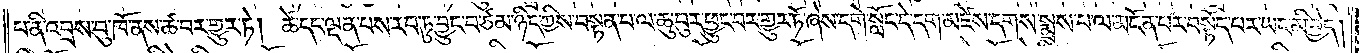པ་ནི་འབྲས་བུ་ཁོ་ནས་ཚ་བར་གྱུར་ཏེ། ཚེ་དང་ལྡན་པས་རབ་ཏུ་བྱུང་བ་ཙམ་ཉིད་ཀྱིས་བསྟན་པ་ལ་ཆུ་བུར་ཕྱུང་བར་གྱུར་ཏོ་ཞེས་དགེ་སློང་དེ་དག་མཛེས་དགས་སྨྲས་པ་ལ་མངོན་པར་བསྟོད་པར་ཡང་མི་བྱེད།
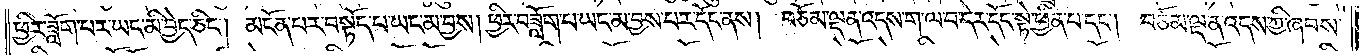ཕྱིར་ཟློག་པར་ཡང་མི་བྱེད་ཅིང༌། མངོན་པར་བསྟོད་པ་ཡང་མ་བྱས། ཕྱིར་བཟློག་པ་ཡང་མ་བྱས་པར་དོང་ནས། བཅོམ་ལྡན་འདས་ག་ལ་བ་དེར་དོང་སྟེ་ཕྱིན་པ་དང༌། བཅོམ་ལྡན་འདས་ཀྱི་ཞབས་
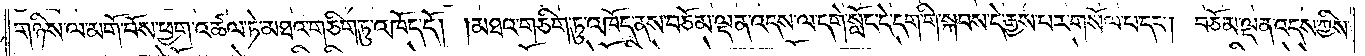གཉིས་ལ་མགོ་བོས་ཕྱག་འཚལ་ཏེ་མཐའ་གཅིག་ཏུ་འཁོད་དོ། །མཐའ་གཅིག་ཏུ་འཁོད་ནས་བཅོམ་ལྡན་འདས་ལ་དགེ་སློང་དེ་དག་གི་སྐབས་དེ་རྒྱས་པར་གསོལ་པ་དང༌། བཅོམ་ལྡན་འདས་ཀྱིས་
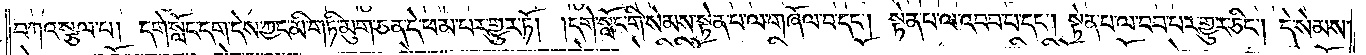བཀའ་སྩལ་པ། དགེ་སློང་དག་དེས་ཀྱང་མི་གཏི་མུག་ཅན་དེ་ཕམ་པར་གྱུར་ཏོ། །དགེ་སློང་གི་སེམས་སྟེན་པ་ལ་གཞོལ་བ་དང༌། སྟེན་པ་ལ་འབབ་པ་དང༌། སྟེན་པ་ལ་བབ་པར་གྱུར་ཅིང༌། དེ་སེམས་
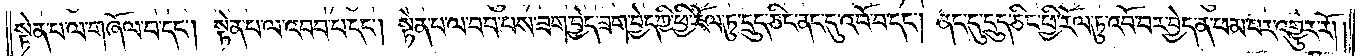སྟེན་པ་ལ་གཞོལ་བ་དང༌། སྟེན་པ་ལ་འབབ་པ་དང༌། སྟེན་པ་ལ་བབ་པས་ཟག་བྱེད་ཟག་བྱེད་ཀྱི་ཕྱི་རོལ་ཏུ་དྲུད་ཅིང་ནང་དུ་འབོ་བ་དང༌། ནང་དུ་དྲུད་ཅིང་ཕྱི་རོལ་ཏུ་འབོ་བར་བྱེད་ན་ཕམ་པར་འགྱུར་རོ། །
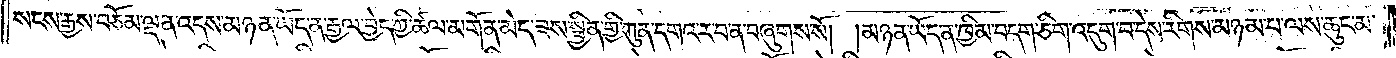སངས་རྒྱས་བཅོམ་ལྡན་འདས་མཉན་ཡོད་ན་རྒྱལ་བྱེད་ཀྱི་ཚལ་མགོན་མེད་ཟས་སྦྱིན་གྱི་ཀུན་དགའ་ར་བ་ན་བཞུགས་སོ། །མཉན་ཡོད་ན་ཁྱིམ་བདག་ཅིག་འདུག་པ་དེས་རིགས་མཉམ་པ་ལས་ཆུང་མ་
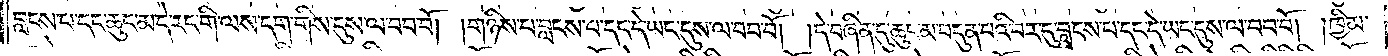བླངས་པ་དང་ཆུང་མ་དེ་རང་གི་ལས་དག་གིས་དུས་ལ་བབ་བོ། །གཉིས་པ་བླངས་པ་དང་དེ་ཡང་དུས་ལ་བབ་བོ། །དེ་བཞིན་དུ་ཆུང་མ་བདུན་པའི་བར་དུ་བླངས་པ་དང་དེ་ཡང་དུས་ལ་བབ་བོ། །ཁྱིམ་
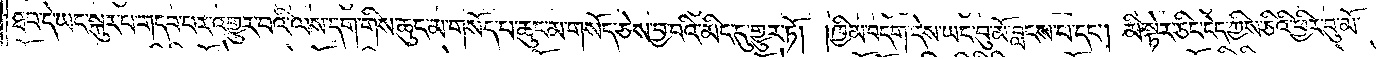ཐབ་དེ་ཡང་སྐུར་པ་གདབ་པར་འགྱུར་བའི་ལས་དག་གིས་ཆུང་མ་གསོད་པ་ཆུང་མ་གསོད་ཅེས་བྱ་བའི་མིང་དུ་གྱུར་ཏོ། །ཁྱིམ་བདག་དེས་ཡང་བུ་མོ་བླངས་པ་དང༌། མི་སྟེར་ཅིང་ངེད་ཀྱིས་ཅིའི་ཕྱིར་བུ་མོ་
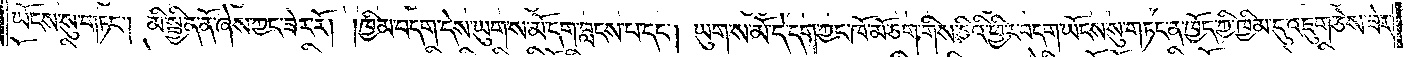ཡོངས་སུ་གཏང༌། མི་སྦྱིན་ནོ་ཞེས་ཀྱང་ཟེར་རོ། །ཁྱིམ་བདག་དེས་ཡུགས་མོ་དག་བླངས་པ་དང༌། ཡུག་ས་མོ་དེ་དག་ཀྱང་ཁོ་མོ་ཅག་གིས་ཅིའི་ཕྱིར་བདག་ཡོངས་སུ་གཏང་ན་ཁྱོད་ཀྱི་ཁྱིམ་དུ་འཇུག་ཅེས་ཟེར་
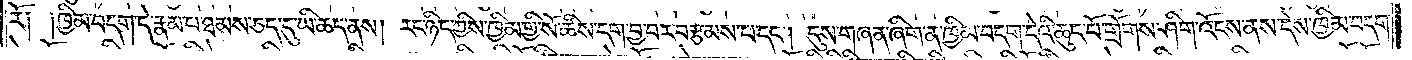རོ༑ ༑ཁྱིམ་བདག་དེ་རྣམ་པ་ཐམས་ཅད་དུ་ཡི་ཆད་ནས། རང་ཉིད་ཀྱིས་ཁྱིམ་གྱི་སོ་ཚིས་དག་བྱ་བར་བརྩམས་པ་དང༌། དུས་གཞན་ཞིག་ན་ཁྱིམ་བདག་དེའི་ཆུང་པོ་གྲོགས་ཤིག་འོངས་ནས་དེས་ཁྱིམ་བདག་
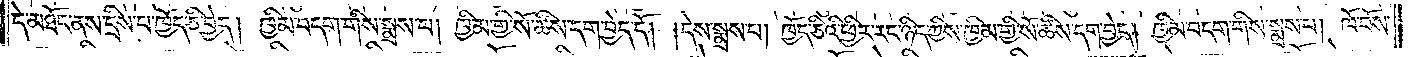དེ་མཐོང་ནས་དྲིས་པ་ཁྱོད་ཅི་བྱེད། ཁྱིམ་བདག་གིས་སྨྲས་པ། ཁྱིམ་གྱི་སོ་ཚིས་དག་བྱེད་དོ། །དེས་སྨྲས་པ། ཁྱོད་ཅིའི་ཕྱིར་རང་ཉིད་ཀྱིས་ཁྱིམ་གྱི་སོ་ཚིས་དག་བྱེད། ཁྱིམ་བདག་གིས་སྨྲས་པ། ཁོ་བོས་
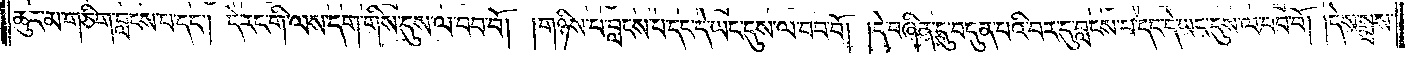ཆུང་མ་གཅིག་བླངས་པ་དང༌། དེ་རང་གི་ལས་དག་གིས་དུས་ལ་བབ་བོ། །གཉིས་པ་བླངས་པ་དང་དེ་ཡང་དུས་ལ་བབ་བོ། །དེ་བཞིན་དུ་བདུན་པའི་བར་དུ་བླངས་པ་དང་དེ་ཡང་དུས་ལ་བབ་བོ། །དེས་སྨྲས་
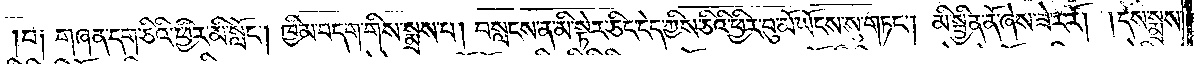པ༑ གཞན་དག་ཅིའི་ཕྱིར་མི་སློང༌། ཁྱིམ་བདག་གིས་སྨྲས་པ། བསླངས་ན་མི་སྟེར་ཅིང་ངེད་ཀྱིས་ཅིའི་ཕྱིར་བུ་མོ་ཡོངས་སུ་གཏང༌། མི་སྦྱིན་ནོ་ཞེས་ཟེར་རོ། །དེས་སྨྲས་
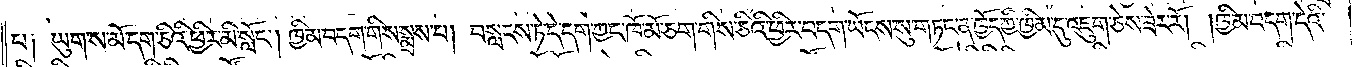པ༑ ཡུག་ས་མོ་དག་ཅིའི་ཕྱིར་མི་སློང༌། ཁྱིམ་བདག་གིས་སྨྲས་པ། བསླངས་ཏེ་དེ་དག་ཀྱང་ཁོ་མོ་ཅག་གིས་ཅིའི་ཕྱིར་བདག་ཡོངས་སུ་གཏང་ན་ཁྱོད་ཀྱི་ཁྱིམ་དུ་འཇུག་ཅེས་ཟེར་རོ། །ཁྱིམ་བདག་དེའི་
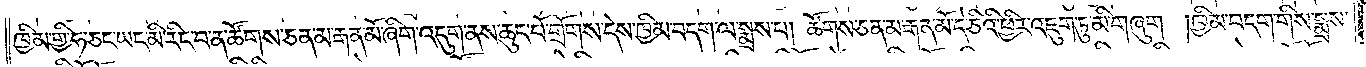ཁྱིམ་གྱི་ཧ་ཅང་ཡང་མི་རིང་བ་ན་ཚོགས་ཅན་མ་རྒན་མོ་ཞིག་འདུག་ནས་ཆུང་པོ་གྲོགས་དེས་ཁྱིམ་བདག་ལ་སྨྲས་པ། ཚོགས་ཅན་མ་རྒན་མོ་དེ་ཅིའི་ཕྱིར་འཇུག་ཏུ་མི་གཞུག །ཁྱིམ་བདག་གིས་སྨྲས་
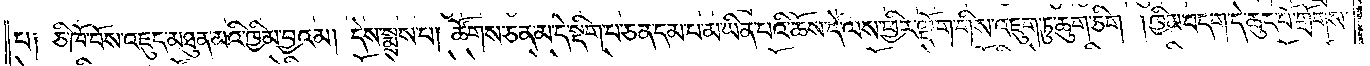པ༑ ཅི་ཁོ་བོས་འཇུད་མཐུན་མའི་ཁྱིམ་བྱའམ། དེས་སྨྲས་པ། ཚོགས་ཅན་མ་དེ་སྡིག་པ་ཅན་དམ་པ་མ་ཡིན་པའི་ཆོས་དེ་ལས་ཕྱིར་ལྡོག་གིས་འཇུག་ཏུ་ཆུག་ཅིག །ཁྱིམ་བདག་དེ་ཆུང་པོ་གྲོགས་
